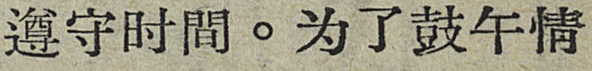遵守时間。为了鼓午情
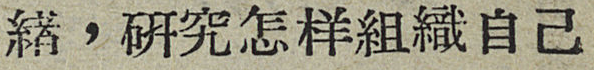緒，研究怎样組織自己
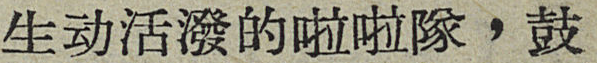生动活潑的啦啦隊，鼓
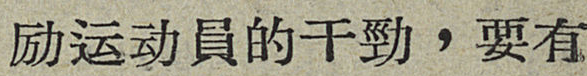励运动員的干勁，要有
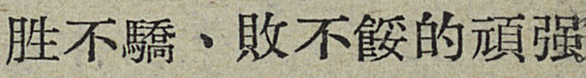胜不驕、敗不餒的頑强
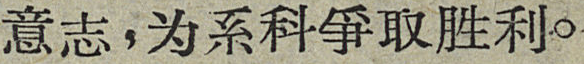意志，为系科爭取胜利。
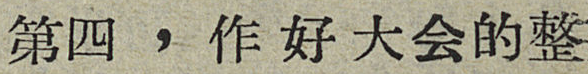第四，做好大会的整
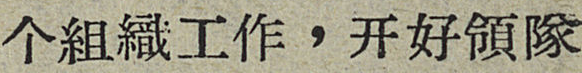个組織工作，开好領隊
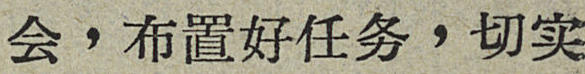会，布置好任务，切实
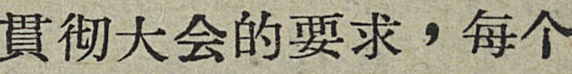貫彻大会党要求，每个
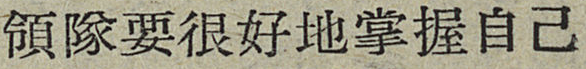領隊要很好地掌握自己
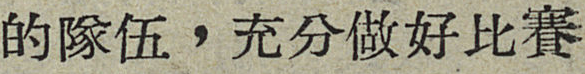的隊伍，充分做好比賽
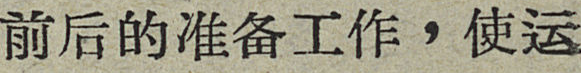前后的准备工作，使运
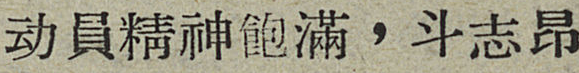动員精神飽滿，斗志昂
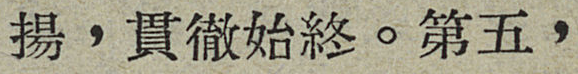揚，貫徹始終。第五，
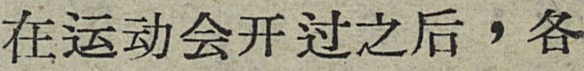在运动会开过之后，各
